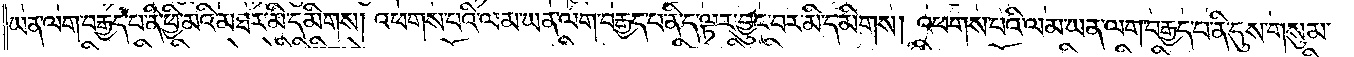ཡན་ལག་བརྒྱད་པ་ནི་ཕྱི་མའི་མཐར་མི་དམིགས། འཕགས་པའི་ལམ་ཡན་ལག་བརྒྱད་པ་ནི་ད་ལྟར་བྱུང་བར་མི་དམིགས། འཕགས་པའི་ལམ་ཡན་ལག་བརྒྱད་པ་ནི་དུས་གསུམ་
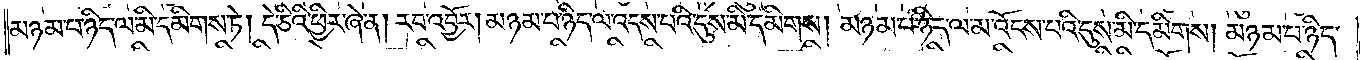མཉམ་པ་ཉིད་ལ་མི་དམིགས་ཏེ། དེ་ཅིའི་ཕྱིར་ཞེ་ན། རབ་འབྱོར། མཉམ་པ་ཉིད་ལ་འདས་པའི་དུས་མི་དམིགས། མཉམ་པ་ཉིད་ལ་མ་འོངས་པའི་དུས་མི་དམིགས། མཉམ་པ་ཉིད་
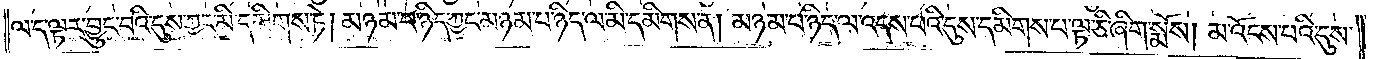ལ་ད་ལྟར་བྱུང་བའི་དུས་ཀྱང་མི་དམིགས་ཏེ། མཉམ་པ་ཉིད་ཀྱང་མཉམ་པ་ཉིད་ལ་མི་དམིགས་ན། མཉམ་པ་ཉིད་ལ་འདས་པའི་དུས་དམིགས་པ་ལྟ་ཅི་ཞིག་སྨོས། མ་འོངས་པའི་དུས་
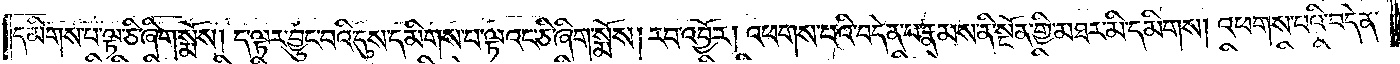དམིགས་པ་ལྟ་ཅི་ཞིག་སྨོས། ད་ལྟར་བྱུང་བའི་དུས་དམིགས་པ་ལྟའང་ཅི་ཞིག་སྨོས། རབ་འབྱོར། འཕགས་པའི་བདེན་པ་རྣམས་ནི་སྔོན་གྱི་མཐར་མི་དམིགས། འཕགས་པའི་བདེན་
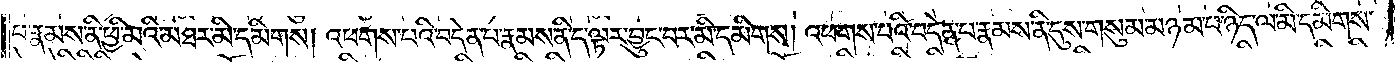པ་རྣམས་ནི་ཕྱི་མའི་མཐར་མི་དམིགས། འཕགས་པའི་བདེན་པ་རྣམས་ནི་ད་ལྟར་བྱུང་བར་མི་དམིགས། འཕགས་པའི་བདེན་པ་རྣམས་ནི་དུས་གསུམ་མཉམ་པ་ཉིད་ལ་མི་དམིགས་
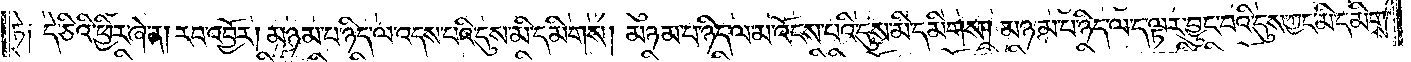ཏེ༑ དེ་ཅིའི་ཕྱིར་ཞེ་ན། རབ་འབྱོར། མཉམ་པ་ཉིད་ལ་འདས་པའི་དུས་མི་དམིགས། མཉམ་པ་ཉིད་ལ་མ་འོངས་པའི་དུས་མི་དམིགས། མཉམ་པ་ཉིད་ལ་ད་ལྟར་བྱུང་བའི་དུས་ཀྱང་མི་དམིགས་
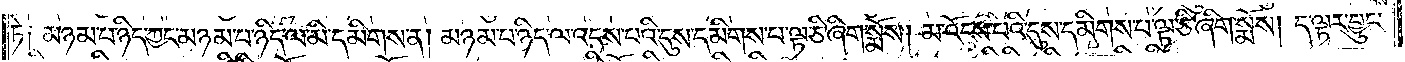ཏེ༑ མཉམ་པ་ཉིད་ཀྱང་མཉམ་པ་ཉིད་ལ་མི་དམིགས་ན། མཉམ་པ་ཉིད་ལ་འདས་པའི་དུས་དམིགས་པ་ལྟ་ཅི་ཞིག་སྨོས། མ་འོངས་པའི་དུས་དམིགས་པ་ལྟ་ཅི་ཞིག་སྨོས། ད་ལྟར་བྱུང་
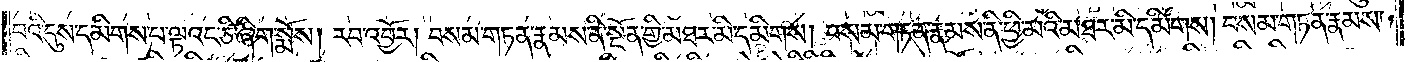བའི་དུས་དམིགས་པ་ལྟའང་ཅི་ཞིག་སྨོས། རབ་འབྱོར། བསམ་གཏན་རྣམས་ནི་སྔོན་གྱི་མཐར་མི་དམིགས། བསམ་གཏན་རྣམས་ནི་ཕྱི་མའི་མཐར་མི་དམིགས། བསམ་གཏན་རྣམས་
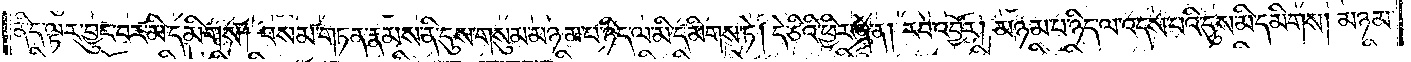ནི་ད་ལྟར་བྱུང་བར་མི་དམིགས། བསམ་གཏན་རྣམས་ནི་དུས་གསུམ་མཉམ་པ་ཉིད་ལ་མི་དམིགས་ཏེ། དེ་ཅིའི་ཕྱིར་ཞེ་ན། རབ་འབྱོར། མཉམ་པ་ཉིད་ལ་འདས་པའི་དུས་མི་དམིགས། མཉམ་
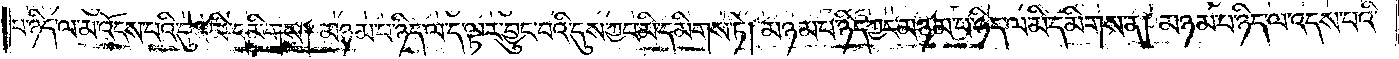པ་ཉིད་ལ་མ་འོངས་པའི་དུས་མི་དམིགས། མཉམ་པ་ཉིད་ལ་ད་ལྟར་བྱུང་བའི་དུས་ཀྱང་མི་དམིགས་ཏེ། མཉམ་པ་ཉིད་ཀྱང་མཉམ་པ་ཉིད་ལ་མི་དམིགས་ན། མཉམ་པ་ཉིད་ལ་འདས་པའི་
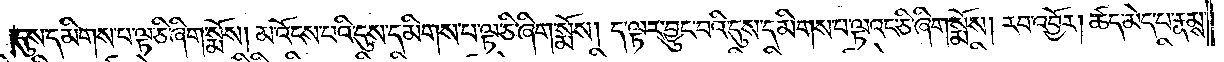དུས་དམིགས་པ་ལྟ་ཅི་ཞིག་སྨོས། མ་འོངས་པའི་དུས་དམིགས་པ་ལྟ་ཅི་ཞིག་སྨོས། ད་ལྟར་བྱུང་བའི་དུས་དམིགས་པ་ལྟའང་ཅི་ཞིག་སྨོས། རབ་འབྱོར། ཚད་མེད་པ་རྣམས་
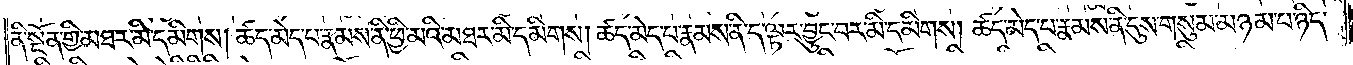ནི་སྔོན་གྱི་མཐར་མི་དམིགས། ཚད་མེད་པ་རྣམས་ནི་ཕྱི་མའི་མཐར་མི་དམིགས། ཚད་མེད་པ་རྣམས་ནི་ད་ལྟར་བྱུང་བར་མི་དམིགས། ཚད་མེད་པ་རྣམས་ནི་དུས་གསུམ་མཉམ་པ་ཉིད་
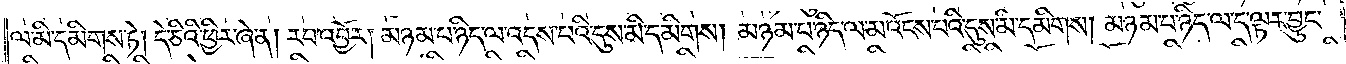ལ་མི་དམིགས་ཏེ། དེ་ཅིའི་ཕྱིར་ཞེ་ན། རབ་འབྱོར། མཉམ་པ་ཉིད་ལ་འདས་པའི་དུས་མི་དམིགས། མཉམ་པ་ཉིད་ལ་མ་འོངས་པའི་དུས་མི་དམིགས། མཉམ་པ་ཉིད་ལ་ད་ལྟར་བྱུང་
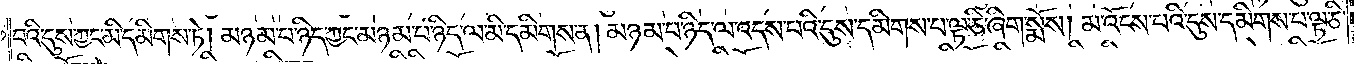བའི་དུས་ཀྱང་མི་དམིགས་ཏེ། མཉམ་པ་ཉིད་ཀྱང་མཉམ་པ་ཉིད་ལ་མི་དམིགས་ན། མཉམ་པ་ཉིད་ལ་འདས་པའི་དུས་དམིགས་པ་ལྟ་ཅི་ཞིག་སྨོས། མ་འོངས་པའི་དུས་དམིགས་པ་ལྟ་ཅི་
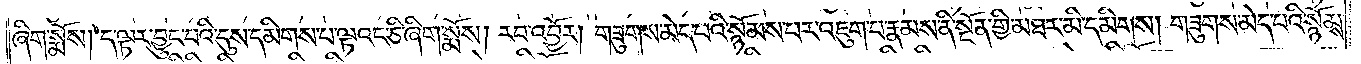ཞིག་སྨོས། ད་ལྟར་བྱུང་བའི་དུས་དམིགས་པ་ལྟའང་ཅི་ཞིག་སྨོས། རབ་འབྱོར། གཟུགས་མེད་པའི་སྙོམས་པར་འཇུག་པ་རྣམས་ནི་སྔོན་གྱི་མཐར་མི་དམིགས། གཟུགས་མེད་པའི་སྙོམས་
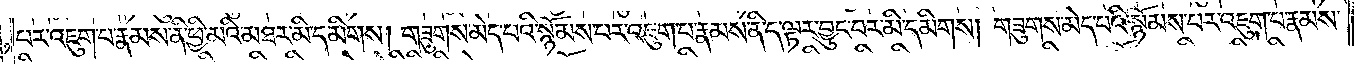པར་འཇུག་པ་རྣམས་ནི་ཕྱི་མའི་མཐར་མི་དམིགས། གཟུགས་མེད་པའི་སྙོམས་པར་འཇུག་པ་རྣམས་ནི་ད་ལྟར་བྱུང་བར་མི་དམིགས། གཟུགས་མེད་པའི་སྙོམས་པར་འཇུག་པ་རྣམས་
